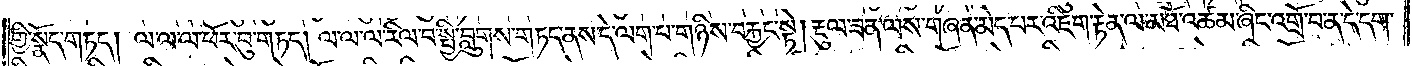གྱི་སྣོད་གཏད། ལ་ལ་ལ་ཕོར་བུ་གཏད། ལ་ལ་ལ་རིལ་བ་སྤྱི་བླུགས་གཏད་ནས་དེ་ལག་པ་གཉིས་བརྐྱང་སྟེ། རྡུལ་ཟན་ལས་གཞན་མེད་པར་འཇིག་རྟེན་ལ་མཐོ་འཚམ་ཞིང་འགྲོ་བ་ན་དེ་དག་
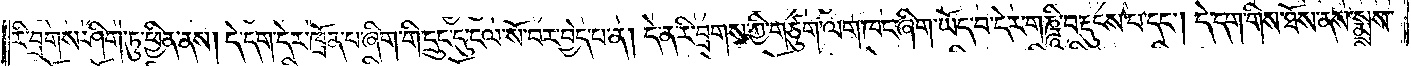རི་བྲགས་ཤིག་ཏུ་ཕྱིན་ནས། དེ་དག་དེར་ཁྲོན་པ་ཞིག་གི་དྲུང་དུ་ངལ་སོ་བར་བྱེད་པ་ན། དེ་ན་རི་བྲགས་ཀྱི་གཙུག་ལག་ཁང་ཞིག་ཡོད་པ་དེར་གཎྜཱི་བརྡུངས་པ་དང༌། དེ་དག་གིས་ཐོས་ནས་སྨྲས་
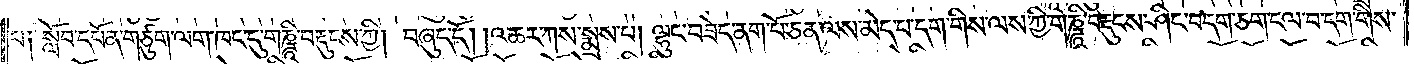པ༑ སློབ་དཔོན་གཙུག་ལག་ཁང་དུ་གཎྜཱི་བརྡུངས་ཀྱི། བཞུད་དོ། །འཆར་ཀས་སྨྲས་པ། ལྷུང་བཟེད་ནག་པོ་ཅན་ལས་མེད་པ་དག་གིས་ལས་ཀྱི་གཎྜཱི་བརྡུངས་ཤིང་བདག་ཅག་ངལ་བ་དག་གིས་
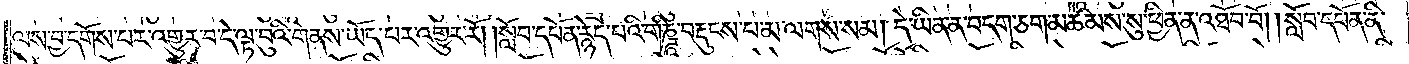ལས་བྱ་དགོས་པར་འགྱུར་བ་དེ་ལྟ་བུའི་གནས་ཡོད་པར་འགྱུར་རོ། །སློབ་དཔོན་རྙེད་པའི་གཎྜཱི་བརྡུངས་པ་མ་ལགས་སམ། དེ་ཡིན་ན་བདག་ཅག་མཚམས་སུ་ཕྱིན་ན་འཐོབ་བོ། །སློབ་དཔོན་ནི་
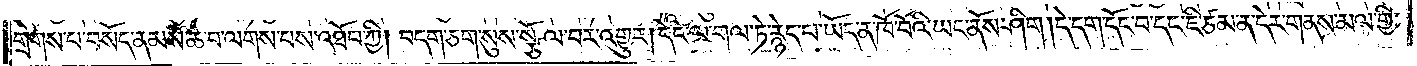གྲགས་པ་བསོད་ནམས་ཆེ་བ་ལགས་པས་འཐོབ་ཀྱི། བདག་ཅག་སུས་སྩོལ་བར་འགྱུར། དེང་ལ་གལ་ཏེ་རྙེད་པ་ཡོད་ན་ཁོ་བོའི་ཡང་ནོས་ཤིག །དེ་དག་དོང་བ་དང་ཇི་ཙམ་ན་དེར་གནས་མལ་གྱི་
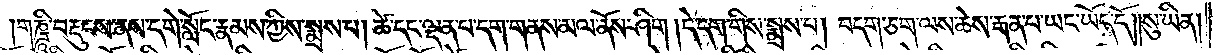གཎྜཱི་བརྡུངས་ནས་དགེ་སློང་རྣམས་ཀྱིས་སྨྲས་པ། ཚེ་དང་ལྡན་པ་དག་གནས་མལ་ནོས་ཤིག །དེ་དག་གིས་སྨྲས་པ། བདག་ཅག་ལས་ཆེས་རྒན་པ་ཡང་ཡོད་དོ། །སུ་ཡིན།
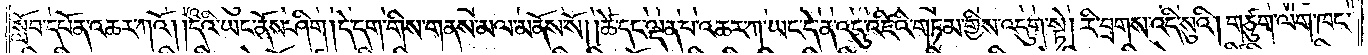སློབ་དཔོན་འཆར་ཀའོ། །དེའི་ཡང་ནོས་ཤིག །དེ་དག་གིས་གནས་མལ་མནོས་སོ། །ཚེ་དང་ལྡན་པ་འཆར་ཀ་ཡང་དེ་ན་འདུ་འཛིའི་གཏམ་གྱིས་འདུག་སྟེ། རི་བྲགས་འདི་སུའི། གཙུག་ལག་ཁང་
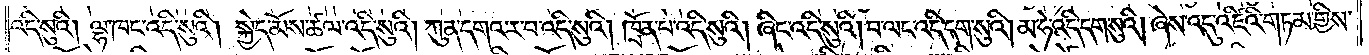འདི་སུའི། ལྷ་ཁང་འདི་སུའི། སྐྱེད་མོས་ཚལ་འདི་སུའི། ཀུན་དགའ་ར་བ་འདི་སུའི། ཁྲོན་པ་འདི་སུའི། ཞིང་འདི་སུའི། བ་ལང་འདི་དག་སུའི། མ་ཧེ་འདི་དག་སུའི། ཞེས་འདུ་འཛིའི་གཏམ་གྱིས་
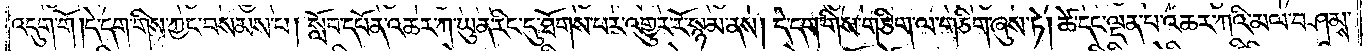འདུག་གོ །དེ་དག་གིས་ཀྱང་བསམས་པ། སློབ་དཔོན་འཆར་ཀ་ཡུན་རིང་དུ་ཐོགས་པར་འགྱུར་རོ་སྙམ་ནས། དེ་དག་གིས་གཅིག་ལ་གཅིག་ཞུས་ཏེ། ཚེ་དང་ལྡན་པ་འཆར་ཀའི་མལ་བཤམས་
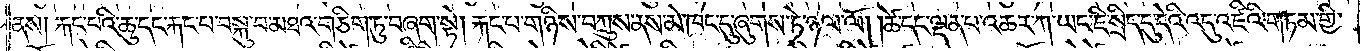ནས། རྐང་པའི་ཆུ་དང་རྐང་པ་བསྐུ་བ་མཐའ་གཅིག་ཏུ་བཞག་སྟེ། རྐང་པ་གཉིས་བཀྲུས་ནས་མེ་ཁང་དུ་ཞུགས་ཏེ་ཉལ་ལོ། །ཚེ་དང་ལྡན་པ་འཆར་ཀ་ཡང་ཇི་སྲིད་དུ་དེའི་འདུ་འཛིའི་གཏམ་གྱི་
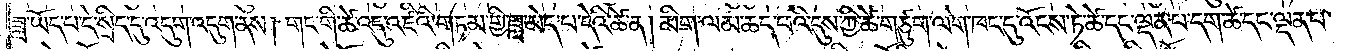ཟླ་ཡོད་པ་དེ་སྲིད་དུ་འདུག་འདུག་ནས། གང་གི་ཚེ་འདུ་འཛིའི་གཏམ་གྱི་ཟླ་མེད་པ་དེའི་ཚེ་ན། མིག་ལམ་ཆད་པའི་དུས་ཀྱི་ཚེ་གཙུག་ལྷག་ཁང་དུ་འོངས་ཏེ་ཚེ་དང་ལྡན་པ་དག་ཚེ་དང་ལྡན་པ་
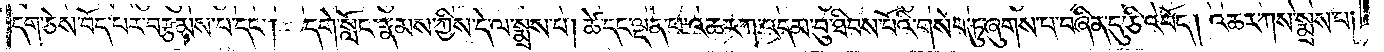དག་ཅེས་བོད་པར་བརྩམས་པ་དང༌། དགེ་སློང་རྣམས་ཀྱིས་དེ་ལ་སྨྲས་པ། ཚེ་དང་ལྡན་པ་འཆར་ཀ་འདམ་བུ་ཐིབས་པོའི་གསེབ་ཏུ་ཞུགས་པ་བཞིན་དུ་ཅི་འབོད། འཆར་ཀས་སྨྲས་པ།
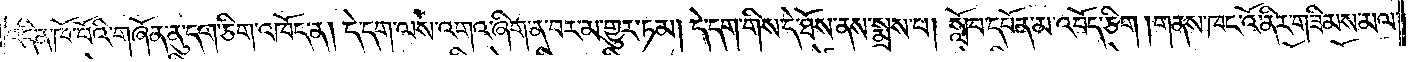འདི་ན་ཁོ་བོའི་གཞོན་ནུ་དག་ཅིག་འཁོད་ན། དེ་དག་ལས་འགའ་ཞིག་ན་བར་མ་གྱུར་ཏམ། དེ་དག་གིས་དེ་ཐོས་ནས་སྨྲས་པ། སློབ་དཔོན་མ་འབོད་ཅིག །གནས་ཁང་འོ་ནིར་གཟིམས་མལ་
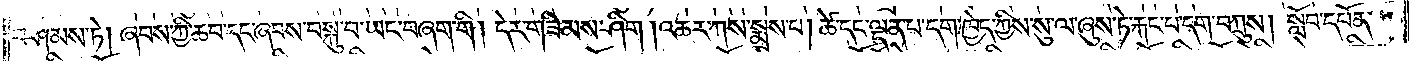བཤམས་ཏེ། ཞབས་ཀྱི་ཆབ་དང་ཞབས་བསྐུ་བ་ཡང་བཞག་གི། དེར་གཟིམས་ཤིག །འཆར་ཀས་སྨྲས་པ། ཚེ་དང་ལྡན་པ་དག་ཁྱེད་ཀྱིས་སུ་ལ་ཞུས་ཏེ་རྐང་པ་དག་བཀྲུས། སློབ་དཔོན་
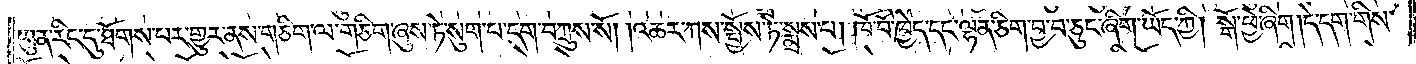ཡུན་རིང་དུ་ཐོགས་པར་གྱུར་ནས་གཅིག་ལ་གཅིག་ཞུས་ཏེ་སུག་པ་དག་བཀྲུས་སོ། །འཆར་ཀས་སྤྱོས་ཏེ་སྨྲས་པ། ཁོ་བོ་ཁྱེད་དང་ལྷན་ཅིག་བྱ་བ་ཅུང་ཞིག་ཡོད་ཀྱི། སྒོ་ཕྱེ་ཞིག །དེ་དག་གིས་
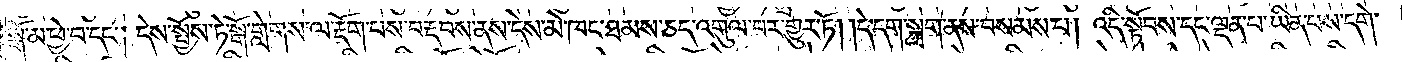སྒོམ་ཕྱེ་བ་དང༌། དེས་སྤྱོས་ཏེ་སྒོ་གླེགས་ལ་རྡོག་པས་བརྡབས་ནས་དེས་མེ་ཁང་ཐམས་ཅད་འགུལ་བར་གྱུར་ཏོ། །དེ་དག་སྐྲག་ནས་བསམས་པ། འདི་སྟོབས་དང་ལྡན་པ་ཡིན་པས་དགེ་
